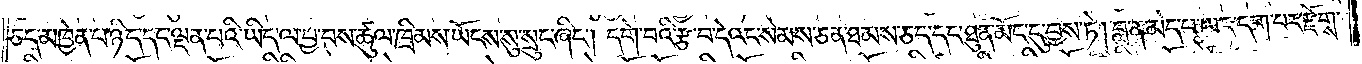ཅད་མཁྱེན་པ་ཉིད་དང་ལྡན་པའི་ཡིད་ལ་བྱ་བས་ཚུལ་ཁྲིམས་ཡོངས་སུ་སྲུང་ཞིང༌། དགེ་བའི་རྩ་བ་དེའང་སེམས་ཅན་ཐམས་ཅད་དང་ཐུན་མོང་དུ་བྱས་ཏེ། བླ་ན་མེད་པ་ཡང་དག་པར་རྫོགས་
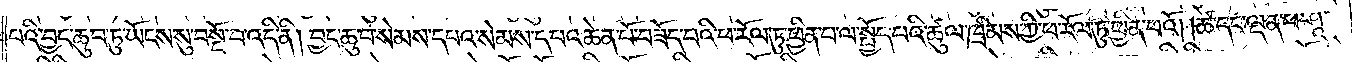པའི་བྱང་ཆུབ་ཏུ་ཡོངས་སུ་བསྔོ་བ་འདི་ནི། བྱང་ཆུབ་སེམས་དཔའ་སེམས་དཔའ་ཆེན་པོ་བཟོད་པའི་ཕ་རོལ་ཏུ་ཕྱིན་པ་ལ་སྤྱོད་པའི་ཚུལ་ཁྲིམས་ཀྱི་ཕ་རོལ་ཏུ་ཕྱིན་པའོ། །ཚེ་དང་ལྡན་པ་ཤཱ་
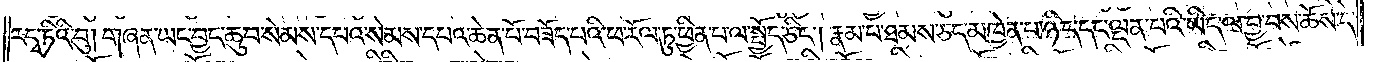རདྭ་ཏིའི་བུ། གཞན་ཡང་བྱང་ཆུབ་སེམས་དཔའ་སེམས་དཔའ་ཆེན་པོ་བཟོད་པའི་ཕ་རོལ་ཏུ་ཕྱིན་པ་ལ་སྤྱོད་ཅིང༌། རྣམ་པ་ཐམས་ཅད་མཁྱེན་པ་ཉིད་དང་ལྡན་པའི་ཡིད་ལ་བྱ་བས་ཆོས་དེ་
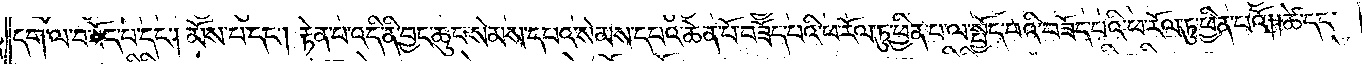དག་ལ་བཟོད་པ་དང༌། མོས་པ་དང༌། རྟེན་པ་འདི་ནི་བྱང་ཆུབ་སེམས་དཔའ་སེམས་དཔའ་ཆེན་པོ་བཟོད་པའི་ཕ་རོལ་ཏུ་ཕྱིན་པ་ལ་སྤྱོད་པའི་བཟོད་པའི་ཕ་རོལ་ཏུ་ཕྱིན་པའོ། །ཚེ་དང་
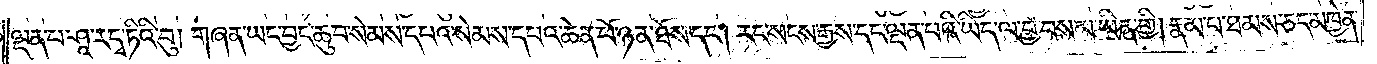ལྡན་པ་ཤཱ་རདྭ་ཏིའི་བུ། གཞན་ཡང་བྱང་ཆུབ་སེམས་དཔའ་སེམས་དཔའ་ཆེན་པོ་ཉན་ཐོས་དང༌། རང་སངས་རྒྱས་དང་ལྡན་པའི་ཡིད་ལ་བྱ་བས་མ་ཡིན་གྱི། རྣམ་པ་ཐམས་ཅད་མཁྱེན་
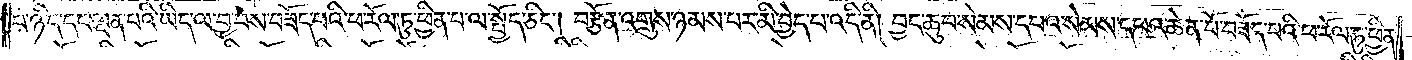པ་ཉིད་དང་ལྡན་པའི་ཡིད་ལ་བྱ་བས་བཟོད་པའི་ཕ་རོལ་ཏུ་ཕྱིན་པ་ལ་སྤྱོད་ཅིང༌། བརྩོན་འགྲུས་ཉམས་པར་མི་བྱེད་པ་འདི་ནི། བྱང་ཆུབ་སེམས་དཔའ་སེམས་དཔའ་ཆེན་པོ་བཟོད་པའི་ཕ་རོལ་ཏུ་ཕྱིན་
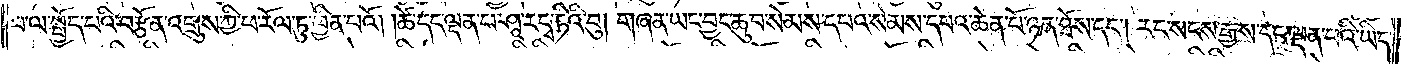པ་ལ་སྤྱོད་པའི་བརྩོན་འགྲུས་ཀྱི་ཕ་རོལ་ཏུ་ཕྱིན་པའོ། །ཚེ་དང་ལྡན་པ་ཤཱ་རདྭ་ཏིའི་བུ། གཞན་ཡང་བྱང་ཆུབ་སེམས་དཔའ་སེམས་དཔའ་ཆེན་པོ་ཉན་ཐོས་དང༌། རང་སངས་རྒྱས་དང་ལྡན་པའི་ཡིད་
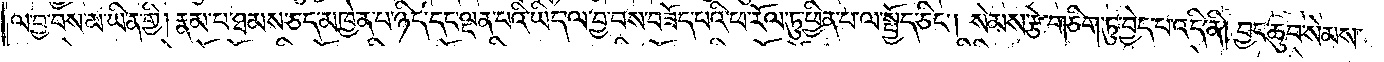ལ་བྱ་བས་མ་ཡིན་གྱི། རྣམ་པ་ཐམས་ཅད་མཁྱེན་པ་ཉིད་དང་ལྡན་པའི་ཡིད་ལ་བྱ་བས་བཟོད་པའི་ཕ་རོལ་ཏུ་ཕྱིན་པ་ལ་སྤྱོད་ཅིང༌། སེམས་རྩེ་གཅིག་ཏུ་བྱེད་པ་འདི་ནི། བྱང་ཆུབ་སེམས་
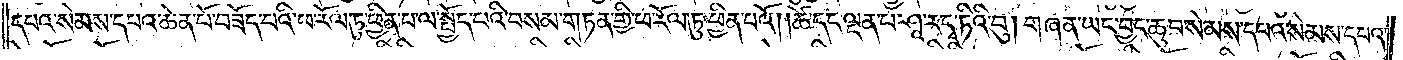དཔའ་སེམས་དཔའ་ཆེན་པོ་བཟོད་པའི་ཕ་རོལ་ཏུ་ཕྱིན་པ་ལ་སྤྱོད་པའི་བསམ་གཏན་གྱི་ཕ་རོལ་ཏུ་ཕྱིན་པའོ། །ཚེ་དང་ལྡན་པ་ཤཱ་རདྭ་ཏིའི་བུ། གཞན་ཡང་བྱང་ཆུབ་སེམས་དཔའ་སེམས་དཔའ་
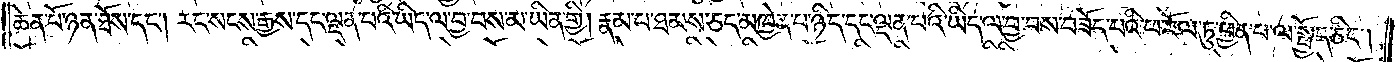ཆེན་པོ་ཉན་ཐོས་དང༌། རང་སངས་རྒྱས་དང་ལྡན་པའི་ཡིད་ལ་བྱ་བས་མ་ཡིན་གྱི། རྣམ་པ་ཐམས་ཅད་མཁྱེན་པ་ཉིད་དང་ལྡན་པའི་ཡིད་ལ་བྱ་བས་བཟོད་པའི་ཕ་རོལ་ཏུ་ཕྱིན་པ་ལ་སྤྱོད་ཅིང༌།
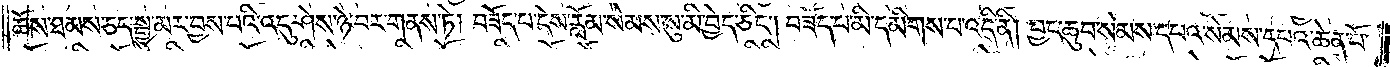ཆོས་ཐམས་ཅད་སྒྱུ་མར་བྱས་པའི་འདུ་ཤེས་ཉེ་བར་གནས་ཏེ། བཟོད་པ་དེས་རློམ་སེམས་སུ་མི་བྱེད་ཅིང༌། བཟོད་པ་མི་དམིགས་པ་འདི་ནི། བྱང་ཆུབ་སེམས་དཔའ་སེམས་དཔའ་ཆེན་པོ་
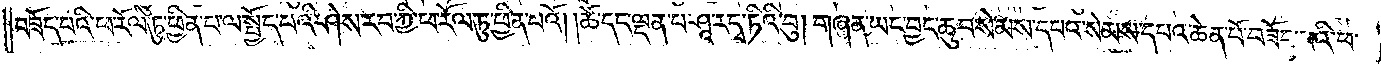བཟོད་པའི་ཕ་རོལ་ཏུ་ཕྱིན་པ་ལ་སྤྱོད་པའི་ཤེས་རབ་ཀྱི་ཕ་རོལ་ཏུ་ཕྱིན་པའོ། །ཚེ་དང་ལྡན་པ་ཤཱ་རདྭ་ཏིའི་བུ། གཞན་ཡང་བྱང་ཆུབ་སེམས་དཔའ་སེམས་དཔའ་ཆེན་པོ་བཟོད་པའི་ཕ་
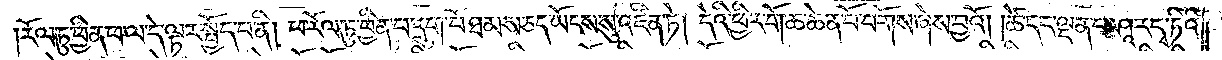རོལ་ཏུ་ཕྱིན་པ་ལ་དེ་ལྟར་སྤྱོད་པ་ནི། ཕ་རོལ་ཏུ་ཕྱིན་པ་དྲུག་པོ་ཐམས་ཅད་ཡོངས་སུ་འཛིན་ཏ། དེའི་ཕྱིར་གོ་ཆ་ཆེན་པོ་བགོས་ཞེས་བྱའོ། །ཚེ་དང་ལྡན་པ་ཤཱ་རདྭ་ཏིའི་
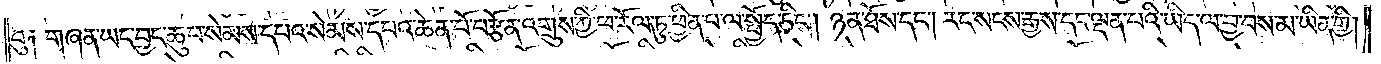བུ༑ གཞན་ཡང་བྱང་ཆུབ་སེམས་དཔའ་སེམས་དཔའ་ཆེན་པོ་བརྩོན་འགྲུས་ཀྱི་ཕ་རོལ་ཏུ་ཕྱིན་པ་ལ་སྤྱོད་ཅིང༌། ཉན་ཐོས་དང༌། རང་སངས་རྒྱས་དང་ལྡན་པའི་ཡིད་ལ་བྱ་བས་མ་ཡིན་གྱི།
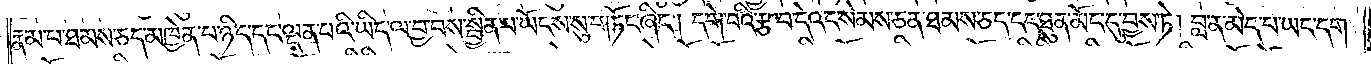རྣམ་པ་ཐམས་ཅད་མཁྱེན་པ་ཉིད་དང་ལྡན་པའི་ཡིད་ལ་བྱ་བས་སྦྱིན་པ་ཡོངས་སུ་གཏོང་ཞིང༌། དགེ་བའི་རྩ་བ་དེའང་སེམས་ཅན་ཐམས་ཅད་དང་ཐུན་མོང་དུ་བྱས་ཏེ། བླ་ན་མེད་པ་ཡང་དག་
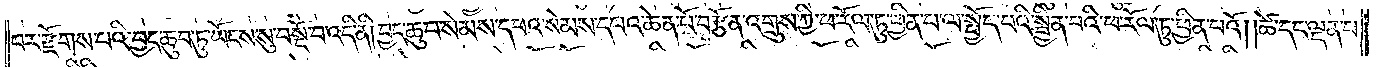པར་རྫོགས་པའི་བྱང་ཆུབ་ཏུ་ཡོངས་སུ་བསྔོ་བ་འདི་ནི། བྱང་ཆུབ་སེམས་དཔའ་སེམས་དཔའ་ཆེན་པོ་བརྩོན་འགྲུས་ཀྱི་ཕ་རོལ་ཏུ་ཕྱིན་པ་ལ་སྤྱོད་པའི་སྦྱིན་པའི་ཕ་རོལ་ཏུ་ཕྱིན་པའོ། །ཚེ་དང་ལྡན་པ་
